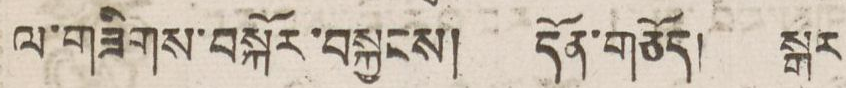ལ་གཟིགས་བསྐོར་བསྐྱངས། དོན་གཅོད། སྒར
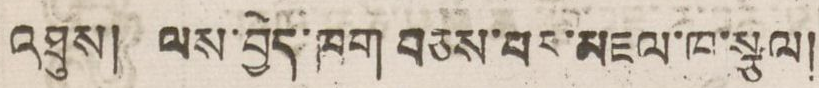འཐུས། ལས་བྱེད་ཁག བཅས་པད་འཇལ་ཁ་སྩལ།
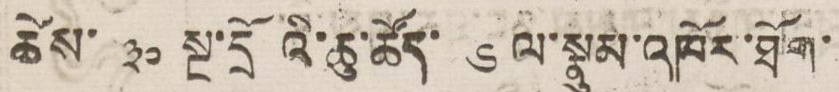ཚེས་ ༣༠ སྔ་དྲོའི་ཆུ་ཚོད་ ༦ ལ་སྣུམ་འཁོར་ཐོག་
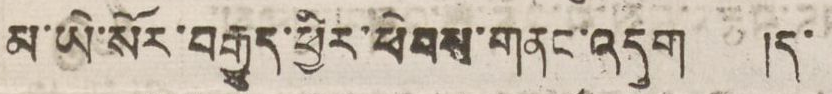མ་ཡེ་སོར་བརྒྱུད་ཕྱིར་ཕེབས་གནང་འདུག །ད་
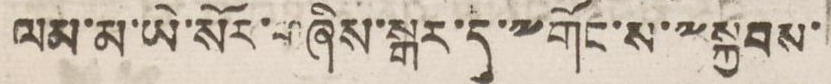ལམ་མ་ཡེ་སོར་གཞིས་སྒར་དུ་༸གོང་ས་༸སྐྱབས་
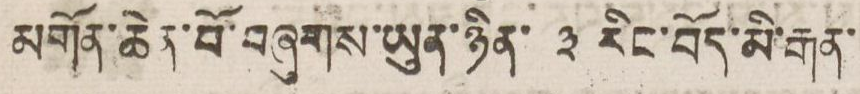མགོན་ཆེན་པོ་བཞུགས་ཡུན་ཉིན་ ༣ རིང་བོད་མི་རྒན་
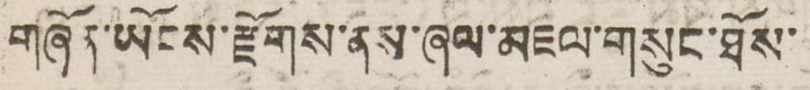གཞོན་ཡོངས་རྫོགས་ནས་ཞལ་འཇལ་གསུང་ཐོས་
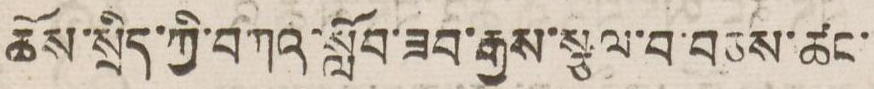ཆིས་སྲིད་ཀྱི་བཀའ་སློབ་ཟབ་རྒྱས་སྩལ་བ་བཅས་ཚང་
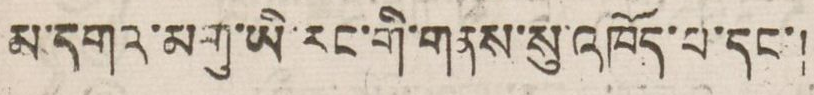མ་དགའ་མགུ་ཡི་རང་གི་གནས་སུ་འཁོད་པ་དང་།
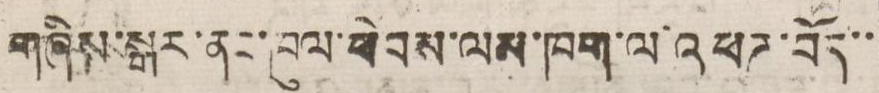གཞིས་སྒར་ནང་ཁུལ་ཕེབས་ལམ་ཁག་ལ་འཕཊ་བོད་་
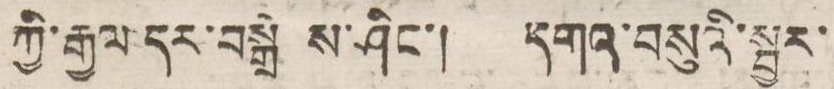ཀྱི་རྒྱལ་དར་བསྒྲེ ས་ཤིང་། དགའ་བསུའི་སྦྱར་
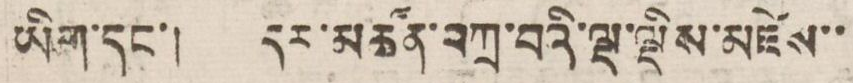ཡིག་དང་། དར་མཚོན་བཀྲ་བའི་ལྡ་ལྡིས་འཛེས་་
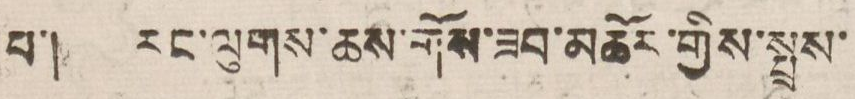པ་། རང་ལུགས་ཆས་གོས་ཟབ་མཆོར་གྱིས་སྤྲུས་
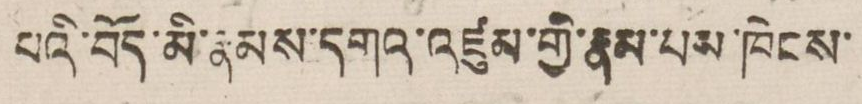པའི་བོད་མི་རྣམས་དགའ་འཛུམ་གྱི་རྣམ་པས་ཁེངས་
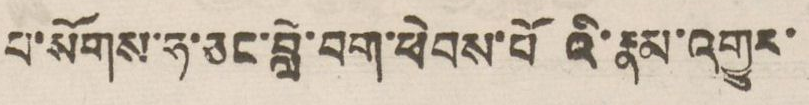པ་སོགས་ཧ་ཅང་བླེ་བག་ཕེབས་པོའི་རྣམ་འགྱུར་
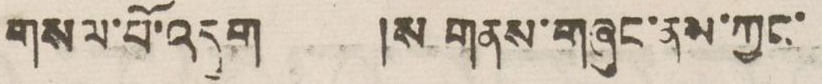གསལ་པོ་འདུག །ས་གནས་གཞུང་ནས་ཀྱང་
